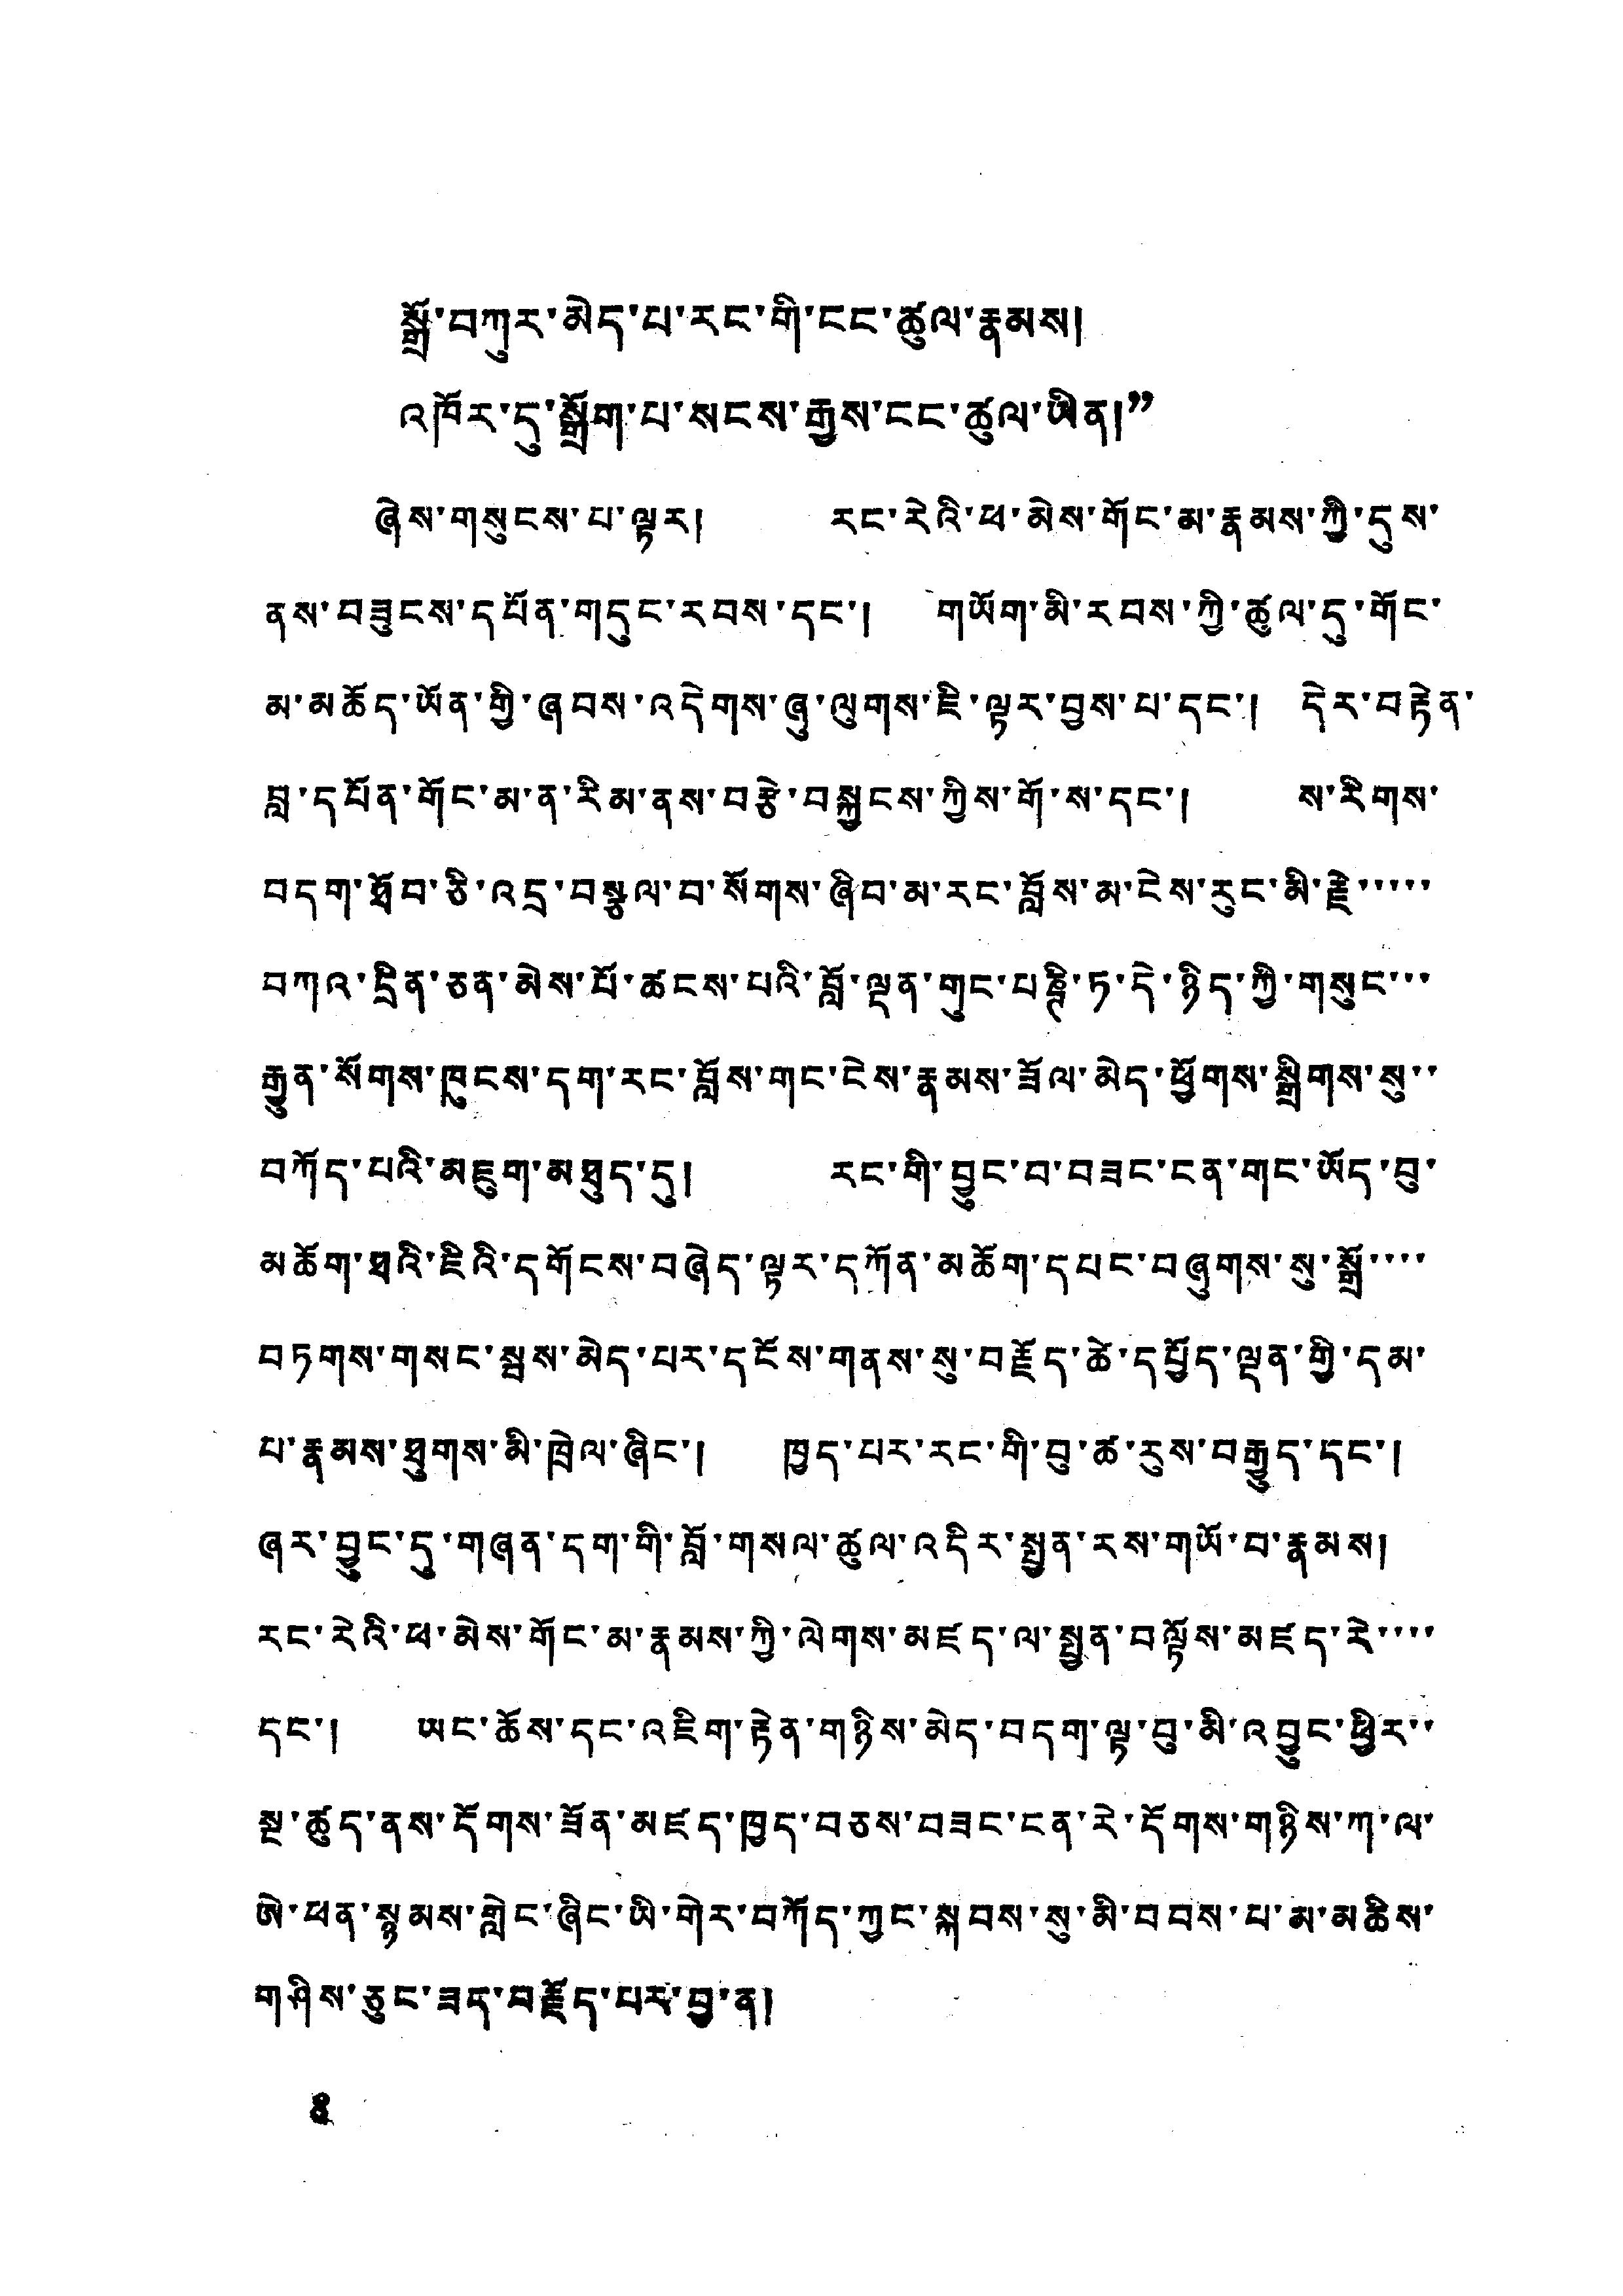སྒྲོ་བཀུར་མེད་པ་རང་གི་ངང་ཚུལ་རྣམས།
འཁོར་དུ་སྒྲོག་པ་སངས་རྒྱས་ངང་ཚུལ་ཡིན།"
ཞེས་གསུངས་པ་ལྟར། རང་རེའི་ཕ་མེས་གོང་མ་རྣམས་ཀྱི་དུས་
ནས་བཟུངས་དཔོན་གདུང་རབས་དང་། གཡོག་མི་རབས་ཀྱི་ཚུལ་དུ་གོང་
མ་མཆོད་ཡོན་གྱི་ཞབས་འདེགས་ཞུ་ལུགས་ཇི་ལྟར་བྱས་པ་དང་། དེར་བརྟེན་
བླ་དཔོན་གོང་མ་ན་རིམ་ནས་བརྩེ་བསྐྱངས་ཀྱིས་གོ་ས་དང་། ས་རིགས་
བདག་ཐོབ་ཅི་འདྲ་བསྩལ་བ་སོགས་ཞིབ་མ་རང་བློས་མ་ངེས་རུང་མི་རྗེ་་་་་་
བཀའ་དྲིན་ཅན་མེས་པོ་ཚངས་པའི་བློ་ལྡན་གུང་པཎྚི་ཏ་དེ་ཉིད་ཀྱི་གསུང་་་
རྒྱུན་སོགས་ཁུངས་དག་རང་བློས་གང་ངེས་རྣམས་ཟོལ་མེད་ཕྱོགས་སྒྲིགས་སུ་་
བཀོད་པའི་མཇུག་མཐུད་དུ། རང་གི་བྱུང་བ་བཟང་ངན་གང་ཡོད་བུ་
མཆོག་ཐའི་ཇིའི་དགོངས་བཞེད་ལྟར་དཀོན་མཆོག་དཔང་བཞུགས་སུ་སྒྲོ་་་་
བཏགས་གསང་སྦས་མེད་པར་དངོས་གནས་སུ་བརྗོད་ཚེ་དཔྱོད་ལྡན་གྱི་དམ་
པ་རྣམས་ཐུགས་མི་ཁྲེལ་ཞིང་། ཁྱད་པར་རང་གི་བུ་ཚ་རུས་རྒྱུད་དང་།
ཞར་བྱུང་དུ་གཞན་དག་གི་བློ་གསལ་ཚུལ་འདིར་སྤྱན་རས་གཡོ་བ་རྣམས།
རང་རེས་ཕ་མེས་གོང་མ་རྣམས་ཀྱི་ལེགས་མཛད་ལ་སྤྱན་བལྟོས་མཛད་རེ་་་་
དང་། ཡང་ཆོས་དང་འཇིག་རྟེན་གཉིས་མེད་བདག་ལྟ་བུ་མི་འབྱུང་ཕྱིར་་
སྔ་ཚུད་ནས་དོགས་ཟོན་མཛད་ཁྱད་བཅས་བཟང་ངན་རེ་དོགས་གཉིས་ཀ་ལ་
ཨེ་ཕན་སྙམས་གླེང་ཞིང་ཡི་གེར་བཀོད་ཀྱང་སྐབས་སུ་མི་བབས་པ་མ་མཆིས་
གཤིས་ཅུང་ཟད་བརྗོད་པར་བྱ་ན།
8
